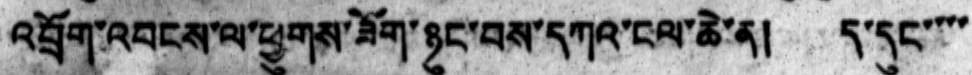འབྲོག་འབངས་ལ་ཕྱུགས་ཟོག་ཉུང་བས་དཀའ་ངལ་ཆེ་ན། ད་དུང་་་་
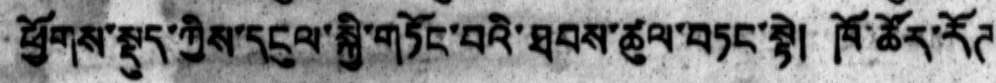ཕྱོགས་སྡུད་ཀྱིས་དངུལ་སྐྱི་གཏོང་བའི་ཐབས་ཚུལ་བཏང་སྟེ། ཁོ་ཚོར་རོཊ
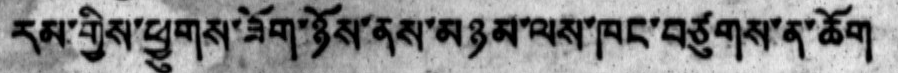རམ་གྱིས་ཕྱུགས་ཟོག་ཉོས་ནས་མཉམ་ལས་ཁང་བཙུགས་ན་ཆོག
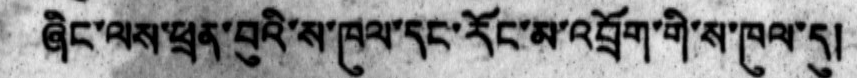ཞིང་ལས་ཕྲན་བུའི་ས་ཁུལ་དང་རོང་མ་འབྲོག་གི་ས་ཁུལ་དུ།
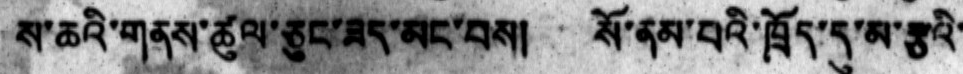ས་ཆའི་གནས་ཚུལ་ཅུང་ཟད་མང་བས། སོ་ནམ་པའི་ཁྲོད་དུ་མ་རྩའི་
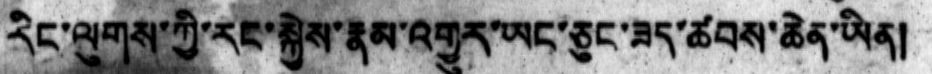རིང་ལུགས་ཀྱི་རང་སྐྱེས་རྣམ་འགྱུར་ཡང་ཅུང་ཟད་ཚབས་ཆེན་ཡིན།
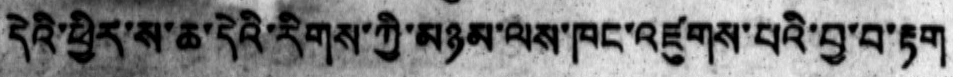དེའི་ཕྱིར་ས་ཆ་དེའི་རིགས་ཀྱི་མཉམ་ལས་ཁང་འཛུགས་པའི་བྱ་བ་རྟག
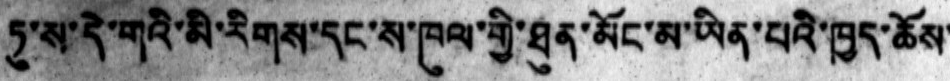ཏུ་ས་དེ་གའི་མི་རིགས་དང་ས་ཁུལ་གྱི་ཐུན་མོང་མ་ཡིན་པའི་ཁྱད་ཆོས་
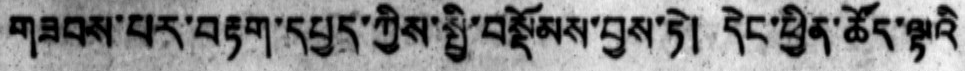གཟབས་པར་བརྟག་དཔྱད་ཀྱིས་སྤྱི་བསྡོམས་བྱས་ཏེ།  དེང་ཕྱིན་ཚོད་ལྟའི
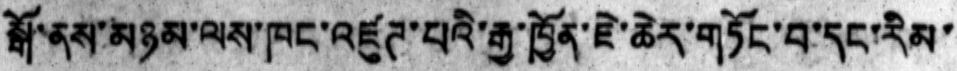སྒོ་ནས་མཉམ་ལས་ཁང་འཛུཊ་པའི་རྒྱ་ཁྱོན་ཇེ་ཆེར་གཏོང་བ་དང་རིམ་
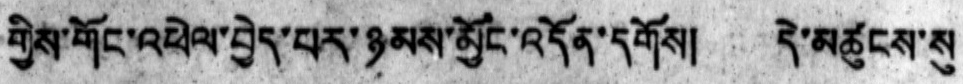གྱིས་གོང་འཕེལ་བྱེད་པར་ཉམས་མྱོང་འདོན་དགོས། དེ་མཚུངས་སུ
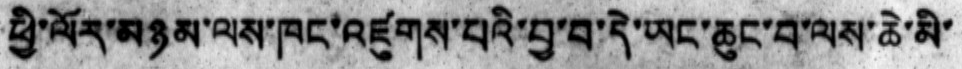ཕྱི་ལོར་མཉམ་ལས་ཁང་འཛུགས་པའི་བྱ་བ་དེ་ཡང་ཆུང་བ་ལས་ཆེ་མི་
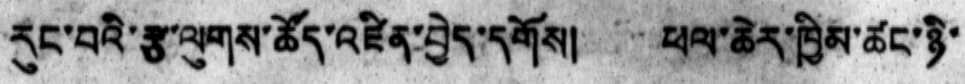རུང་བའི་རྩ་ལུགས་ཚོད་འཛིན་བྱེད་དགོས།  ཕལ་ཆེར་ཁྱིམ་ཚང་ཉི་
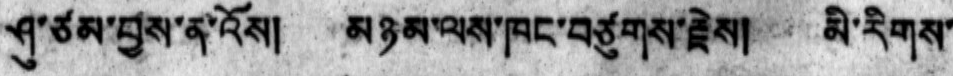ཤུ་ཙམ་བྱས་ན་འོས།   མཉམ་ལས་ཁང་བཙུགས་རྗེས།   མི་རིགས་
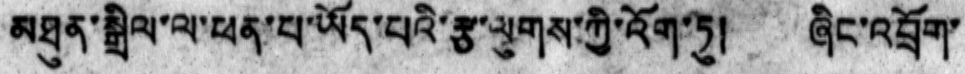མཐུན་སྒྲིལ་ལ་ཕན་པ་ཡོད་པའི་རྩ་ལུགས་ཀྱི་འོག་ཏུ།   ཞིང་འབྲོག་
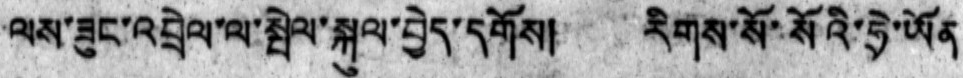ལས་ཟུང་འབྲེལ་འབྲེལ་ལ་སྤེལ་སྐུལ་བྱེད་དགོས།  རིགས་སོ་སོའི་ཧྲེ་ཡོན
